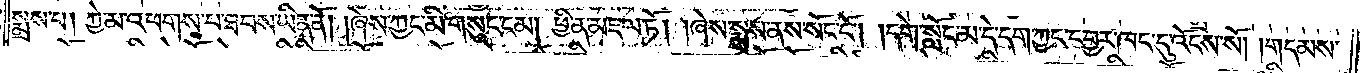སྨྲས་པ། ཀྱེ་མ་འཕགས་པ་ཐབས་ཡིན་ནོ། །ཞེས་ཀྱང་མི་གསུང་ངམ། ཕྱིན་མཇལ་ཏོ། །ཞེས་སྨྲས་ནས་སོང་ངོ༌། །དགེ་སློང་མ་དེ་དག་ཀྱང་དབྱར་ཁང་དུ་འོངས་སོ། །གདམས་
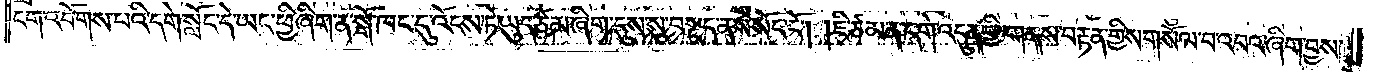ངག་འབོགས་པའི་དགེ་སློང་དེ་ཡང་ཕྱི་ཞིག་ན་སྒོ་ཁང་དུ་འོངས་ཏེ་ཡུད་ཙམ་ཞིག་དུས་སུ་བསྡད་ནས་སོང་ངོ༌། །ཇི་ཙམ་ན་དགེ་འདུན་གྱི་གནས་བརྟན་གྱིས་གསོལ་བ་འབའ་ཞིག་བྱས་
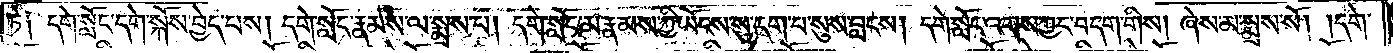ཏེ། དགེ་སློང་དགེ་སྐོས་བྱེད་པས། དགེ་སློང་རྣམས་ལ་སྨྲས་པ། དགེ་སློང་མ་རྣམས་ཀྱི་ཡོངས་སུ་དག་པ་སུས་བླངས། དགེ་སློང་འགས་ཀྱང་བདག་གིས། ཞེས་མ་སྨྲས་སོ། །དགེ་
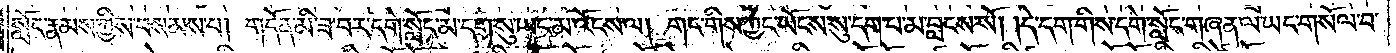སློང་རྣམས་ཀྱིས་བསམས་པ། གདོན་མི་ཟ་བར་དགེ་སློང་མ་དག་སུ་ཡང་མ་འོངས་ལ། གང་གིས་ཀྱང་ཡོངས་སུ་དག་པ་མ་བླངས་སོ། །དེ་དག་གིས་དགེ་སློང་གཞན་ལ་ཡང་གསོལ་བ་
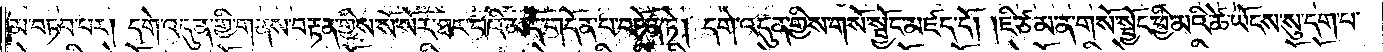མ་བཏབ་པར། དགེ་འདུན་གྱི་གནས་བརྟན་གྱིས་སོ་སོར་ཐར་པའི་མདོ་གདོན་པ་བཏོན་ཏེ། དགེ་འདུན་གྱིས་གསོ་སྦྱོང་མཛད་དོ། །ཇི་ཙམ་ན་གསོ་སྦྱོང་ཕྱི་མའི་ཚེ་ཡོངས་སུ་དག་པ་
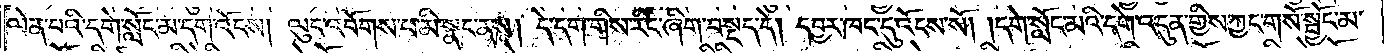ལེན་པའི་དགེ་སློང་མ་དག་འོངས། ལུང་འབོགས་པ་མི་སྣང་ནས། དེ་དག་གིས་རིང་ཞིག་བསྡད་དེ། དབྱར་ཁང་དུ་འོངས་སོ། །དགེ་སློང་མའི་དགེ་འདུན་གྱིས་ཀྱང་གསོ་སྦྱོང་མ་
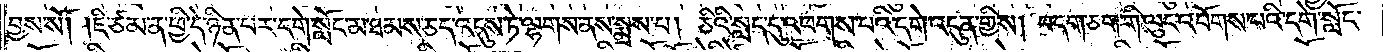བྱས་སོ། །ཇི་ཙམ་ན་ཕྱི་དེ་ཉིན་པར་དགེ་སློང་མ་ཐམས་ཅད་འདུས་ཏེ་ལྷགས་ནས་སྨྲས་པ། ཅིའི་སླད་དུ་འཕགས་པའི་དགེ་འདུན་གྱིས། བདག་ཅག་གི་ལུང་འབོགས་པའི་དགེ་སློང་
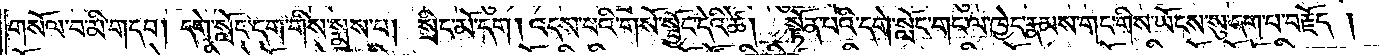གསོལ་བ་མི་གདབ། དགེ་སློང་དག་གིས་སྨྲས་པ། སྲིང་མོ་དག །འདས་པའི་གསོ་སྦྱོང་དེའི་ཚེ། སྟོན་པའི་དགེ་སློང་གང་ལ་ཁྱེད་རྣམས་གང་གིས་ཡོངས་སུ་དག་པ་བརྗོད།
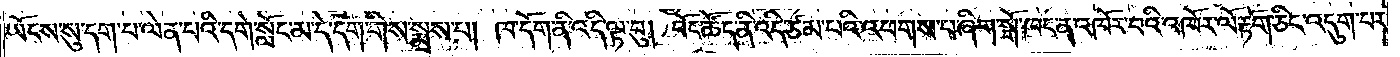ཡོངས་སུ་དག་པ་ལེན་པའི་དགེ་སློང་མ་དེ་དག་གིས་སྨྲས་པ། ཁ་དོག་ནི་འདི་ལྟ་བུ། བོང་ཚོད་ནི་འདི་ཙམ་པའི་འཕགས་པ་ཞིག་སྒོ་ཁང་ན་འཁོར་བའི་འཁོར་ལོ་རྟོག་ཅིང་འདུག་པར་
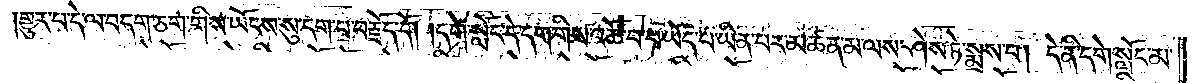གྱུར་པ་དེ་ལ་བདག་ཅག་གིས་ཡོངས་སུ་དག་པ་བརྗོད་དོ། །དགེ་སློང་དེ་དག་གིས་འཚོ་བ་པ་ཡོད་པ་ཡིན་པར་མཚན་མ་ལས་ཤེས་ཏེ་སྨྲས་པ། དེ་ནི་དགེ་སློང་མ་
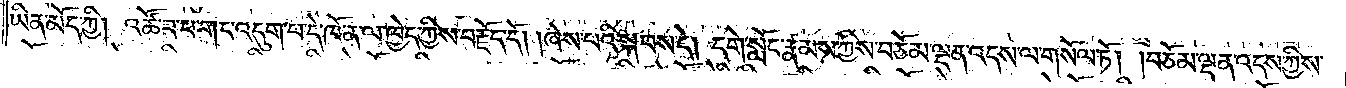ཡིན་མོད་ཀྱི། འཚོ་བ་པ་གང་འདུག་པ་དེ་ཁོ་ན་ལ་ཁྱེད་ཀྱིས་བརྗོད་དོ། །ཞེས་པའི་སྐབས་དེ། དགེ་སློང་རྣམས་ཀྱིས་བཅོམ་ལྡན་འདས་ལ་གསོལ་ཏོ། །བཅོམ་ལྡན་འདས་ཀྱིས་
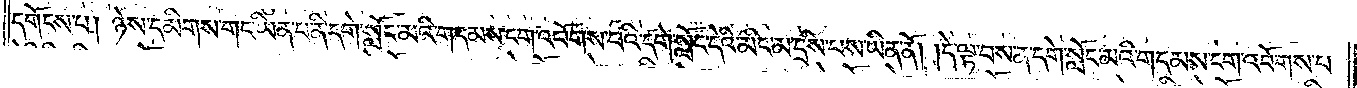དགོངས་པ། ཉེས་དམིགས་གང་ཡིན་པ་ནི་དགེ་སློང་མའི་གདམས་ངག་འབོགས་པའི་དགེ་སློང་དེའི་མིང་མ་དྲིས་པས་ཡིན་ནོ། །དེ་ལྟ་བས་ན་དགེ་སློང་མའི་གདམས་ངག་འབོགས་པ་
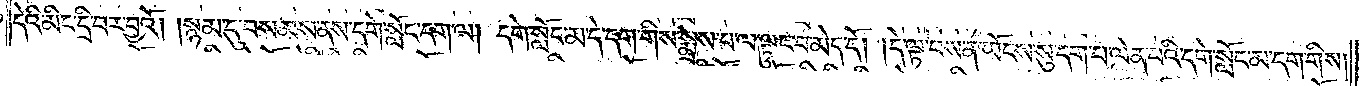དེའི་མིང་དྲི་བར་བྱའོ། །སྙམ་དུ་བསམས་ནས་དགེ་སློང་དག་ལ། དགེ་སློང་མ་དེ་དག་གིས་སྨྲས་པ་ལ་ལྟུང་བ་མེད་དོ། །དེ་ལྟ་བས་ན་ཡོངས་སུ་དག་པ་ལེན་པའི་དགེ་སློང་མ་དག་གིས།
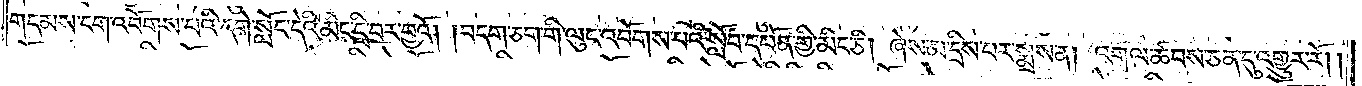གདམས་ངག་འབོགས་པའི་དགེ་སློང་དེའི་མིང་དྲི་བར་བྱའོ། །བདག་ཅག་གི་ལུང་འབོགས་པའི་སློབ་དཔོན་གྱི་མིང་ཅི། ཞེས་མ་དྲིས་པར་སྨྲས་ན། འགལ་ཚབས་ཅན་དུ་འགྱུར་རོ། །
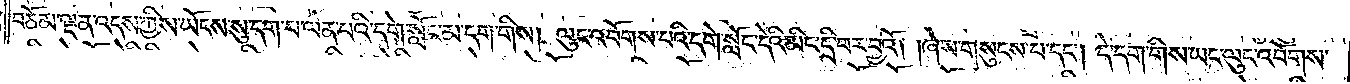བཅོམ་ལྡན་འདས་ཀྱིས་ཡོངས་སུ་དག་པ་ལེན་པའི་དགེ་སློང་མ་དག་གིས། ལུང་འབོགས་པའི་དགེ་སློང་དེའི་མིང་དྲི་བར་བྱའོ། །ཞེས་གསུངས་པ་དང༌། དེ་དག་གིས་ཡང་ལུང་འབོགས་
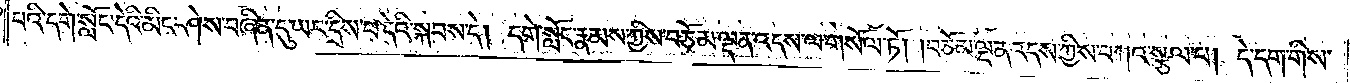པའི་དགེ་སློང་དེའི་མིང་ཤེས་བཞིན་དུ་ཡང་དྲིས་པ་དེའི་སྐབས་དེ། དགེ་སློང་རྣམས་ཀྱིས་བཅོམ་ལྡན་འདས་ལ་གསོལ་ཏོ། །བཅོམ་ལྡན་འདས་ཀྱིས་བཀའ་སྩལ་པ། དེ་དག་གིས་
